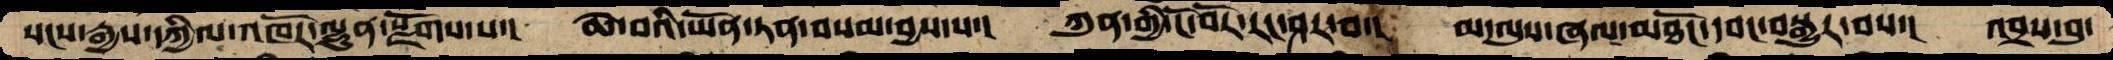སངས་རྒྱས་དཀྱིལ་འཁོར་ལྷུན་སྫོགས་པ་།   ཆེ་བའི་ཡོན་ཏན་བསམ་བྱས་པ་།  ཀུན་གྱི་ངོ་བོར་རང་ཤར་བ་།  མ་ལུས་ཞལ་མཐོང་དབང་བསྒྱུར་བས་།  འབྲས་བུ་
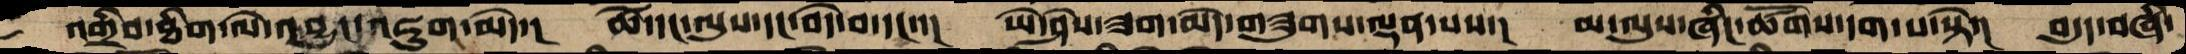འགྲིབ་ཐིག་ལེ་འབྱུང་འཇུག་མེད་།   ཚེ་དང་ལུས་དང་བདེ་བ་དང་་།  ཡེ་ཤེས་ཟག་མེད་གཟུགས་ལྡན་པས་།  མ་ལུས་ཞིང་ཚོགས་དག་པ་སྟེ་།  བདུད་བཞི་
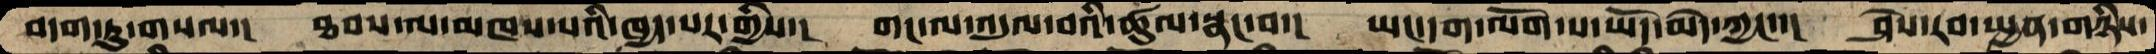བདག་ཏུ་གསལ་།  ཐབས་ལ་མཁས་པའི་ཁྱད་པར་གྱིས་།  གང་ལ་འདུལ་བའི་ཚུལ་སྣང་བ་།  ཡང་དག་ལོག་པ་ཡོད་མེད་ཀྱང་་།  ཤེས་རབ་སྤྱན་གཉིས་
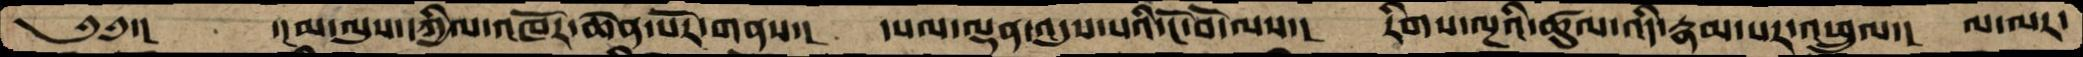༄༅་།     ་།མ་ལུས་དཀྱིལའཁོར་ཆེན་པོར་གནས་།  དཔལ་ལྡན་འདུས་པའི་ངོ་བོ་ལས་།  རིགས་ལྔའི་ཚུལ་འདི་རྣམ་པར་འཕྲུལ་།  ལ་ལར་
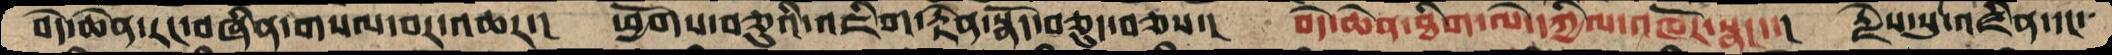བདེ་ཆེན་རང་བཞིན་གསལ་བར་འཆར་།  ཕྱོགས་བཅུའི་འཇིག་རྟེན་སྣོད་བཅུད་བཅས་།  བདེ་ཆེན་ཐིག་ལེ་དཀྱིལ་འཁོར་སྣང་་།  རྗེས་སུ་འཛིན་དང་
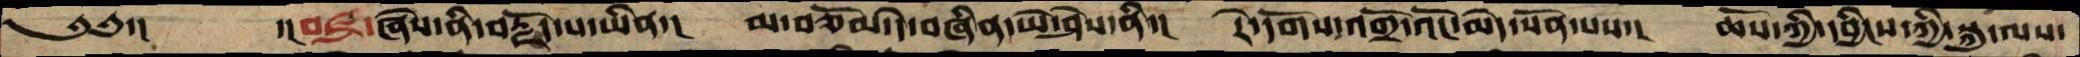༄༅་།      ་།བཛྲ་ཞེས་ནི་བརྗོད་པ་ཡིན་།   མ་བཅོམ་དེ་བཞིན་ཡེ་ཤེས་ནི་།   རེ་དོགས་འགྲོ་འོང་མེད་སོན་པས་།  ཆོས་ཀྱི་དབྱིངས་ཀྱི་སྐུ་ལས་
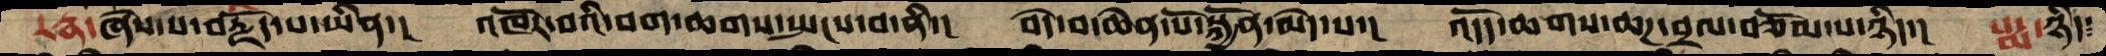རཏྣ་ཞེས་པ་བརྗོད་པ་ཡིན་།  འཁོར་བའི་བག་ཆགས་སྤངས་བ་ནི་།  བདེ་བ་ཆེན་པོ་སྐྱོན་མེད་པ་།  འདོད་ཆགས་ཆཌ་བྲལ་བཅོམ་པ་ཉིད་།  པདྨ་ཉིད༴
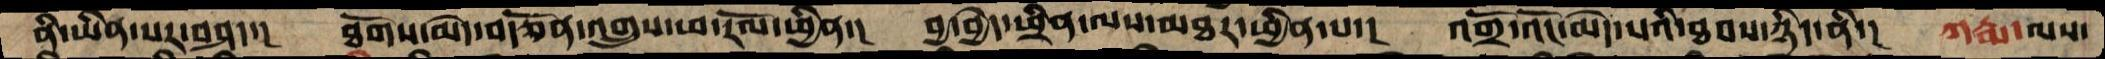ནི་ཡིན་པར་བཤད་།    ཐོགས་མེད་བརྩོན་འགྲུས་ཕ་རོལ་ཕྱིན་།  བྱ་བྱེད་ཕྲིན་ལས་མཐར་ཕྱིན་པ་།  འགྲོ་འོང་མེད་པའི་ཐབས་ཉིད་ནི་།  ཀརྨ་ལས་
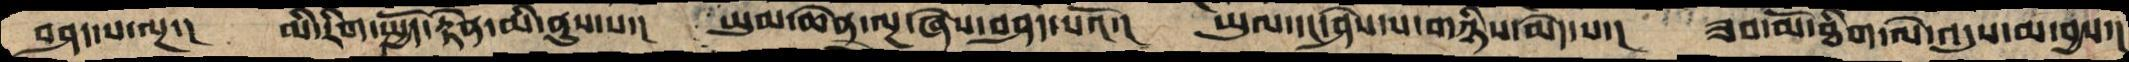བཤད་པ་ལྔ་།  མི་རིག་སྤྱོད་རྟེན་མི་ནུས་པ་།  ཡུམ་ཆེན་ལྔ་ཞེས་བཤད་པའོ་།   ཡུལ་དང་ཤེས་པ་གཉིས་མེད་པ་།  ཟབ་མོ་ཐིག་ལེ་འདུས་མ་བྱས་།
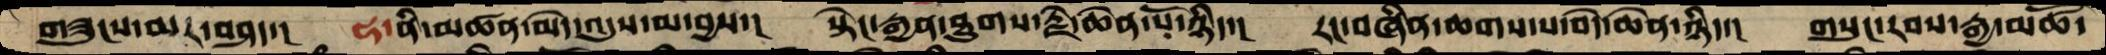གཟུངས་མར་བཤད་།   ཧ་ནི་མཚན་མེད་འདུས་མ་བྱས་།   སྟེང་རྒྱན་ཐུགས་རྗེ་ཆེན་པོ་ཉིད་།  རང་བཞིན་ཆགས་པ་བདེ་ཆེན་ཉིད་།   གསུང་རབས་རྒྱ་མཚོ་
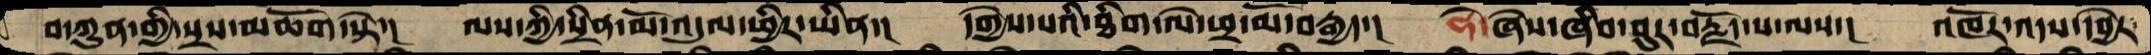བ་ཀུན་གྱི་སྲས་མཆོག་སྟེ་།  ལས་ཀྱི་སྲིན་མོ་འདུལ་ཕྱིར་ཡིན་།  དགྱེས་པའི་ཐིག་ལེ་ཕྲ་མོ་བརྒྱད་།   ཧེ་ཞེས་ཞིབ་བུར་བརྗོད་པ་ལས་།   འཁོར་འདས་དབྱེར༴
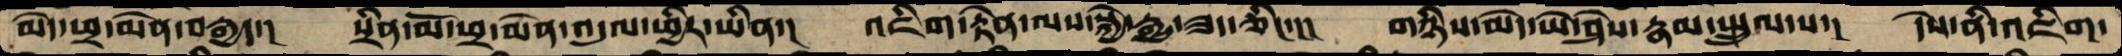མེད་ཕྲ་མེན་བརྒྱད་།    སྲིན་མོ་ཕྲ་མེན་འདུལ་ཕྱིར་ཡིན་།   འཇིག་རྟེན་ལས་སྐྱེ་རྒྱུ་ཟད་ཅིང་།།།   གཉིས་མེད་ཡེ་ཤེས་རྣམ་སྤྲུལ་པ་།    དེས་ནི་འཇིག་
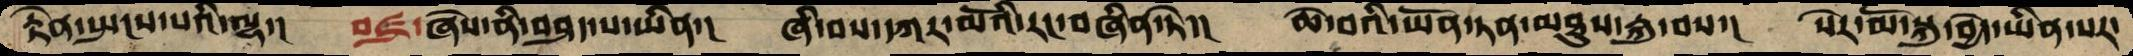རྟེན་སྤངས་པའི་ལྷ་།   བཛྲ་ཞེས་ནི་བཤད་པ་ཡིན་།  ཞི་བས་དཀར་མོའི་རང་བཞིན་ཏེ་།   ཆེ་བའི་ཡོན་ཏན་མཐུས་རྐུ་བས་།  སེར་མོ་སྐུ་བྱེད་ཡིན་པར་
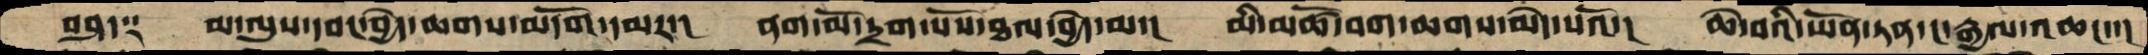བཤད༑  མ་ལུས་དབང་བྱེད་ཆགས་མདོག་དམར་།  ནག་མོ་དྲག་པོས་ཐལ་བྱེད་མ་།   མི་མཚོ་བག་ཆགས་མེད་པའོ་།   ཆེ་བའི་ཡོན་ཏན་ང་རྒྱལ་འཆང་་།
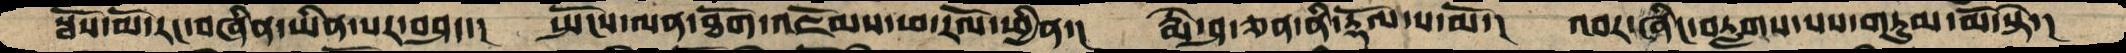སྦོས་མོ་རང་བཞིན་ཡིན་པར་བཤད་།  སྤོངས་ལན་ཐོག་འཇོམས་ཕ་རོལ་ཕྱིན་།  རྨེ་ཤ་ཅན་ནི་རྡོལ་པ་མོ་།  འབར་ཞིང་བརླགས་པས་གཏུམ་མོ་སྟེ་།
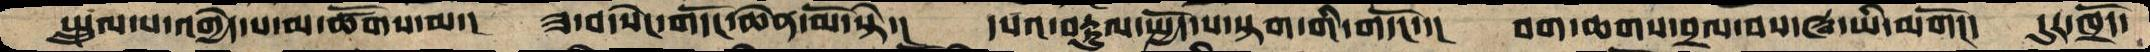སྤྲུལ་པ་འགྱེད་པ་མ་ཚོགས་མ་།  ཟ་བ་སེང་གདོང་ཆེན་མོ་སྟེ་།  དཔའ་བརྟུལ་སྤྱོད་པ་སྟག་གི་གདོང་་།  བག་ཆགས་བྲལ་བས་ཝ་ཡི་མགོ་།  དུར་ཁྲོད་
